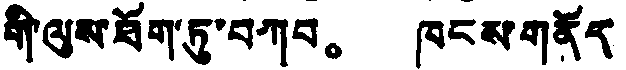གྱི་ལུས་ཐོག་ཏུ་བཀབ。 ཁུངས་གནོད་
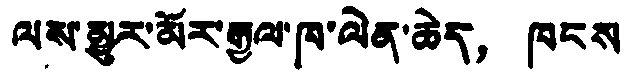ལས་མྱུར་མོར་རྒྱལ་ཁ་ལེན་ཆེད， ཁུངས
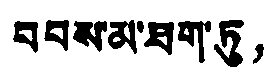བབས་མ་ཐག་ཏུ，
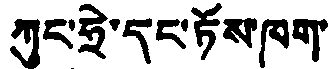ཀུང་ཧྲེ་དང་ཏོས་ཁག་
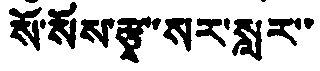སོ་སོས་རྩྭ་སར་སླར་་
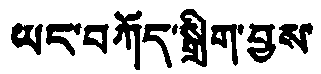ཡང་བཀོད་སྒྲིག་བྱས་
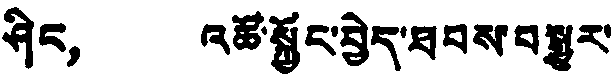ཤིང， འཚོ་སྐྱོང་བྱེད་ཐབས་བསྒྱུར་
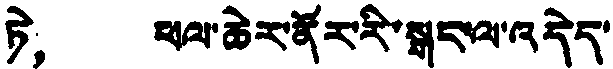ཏེ， ཕལ་ཆེར་ནོར་རི་སྒང་ལ་འདེད་
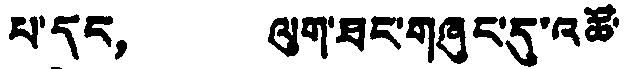པ་དད， ལུག་ཐང་གཞུང་དུ་འཚོ་
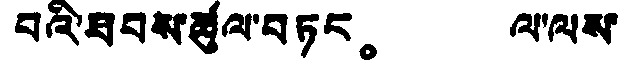བའི་ཐབས་ཚུལ་བཏང。 ལ་ལས་
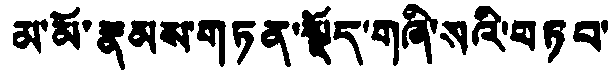མ་མོ་རྣམས་གཏན་སྡོད་གཞི་སའི་བཏབ་
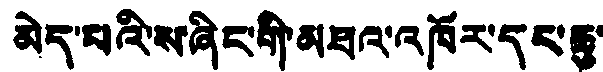མེད་པའི་ས་ཞིང་གི་མཐའ་འཁོར་དང་ཆུ་
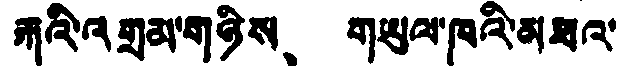རྐའི་འགྲམ་གཉིས、 གཡུལ་ཁའི་མཐའ་
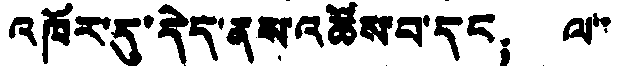འཁོར་དུ་དེད་ནས་འཚོས་བ་དང； ལ་་
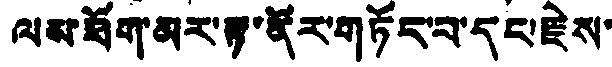ལས་ཐོག་མར་རྟ་ནོར་གཏོང་བ་དང་རྗེས་
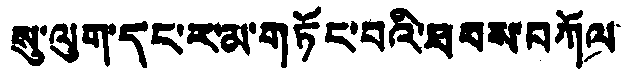སུ་ལུག་དང་རམ་གཏོང་བའི་ཐབས་བཀོལ་
